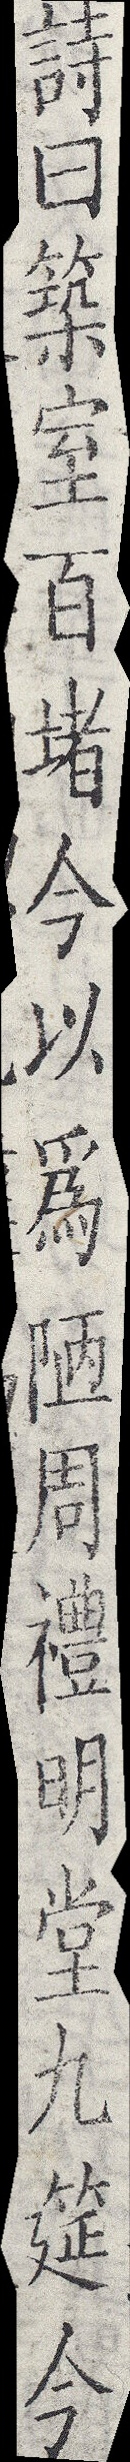詩曰築室百堵今以為陋周禮明堂九筵今
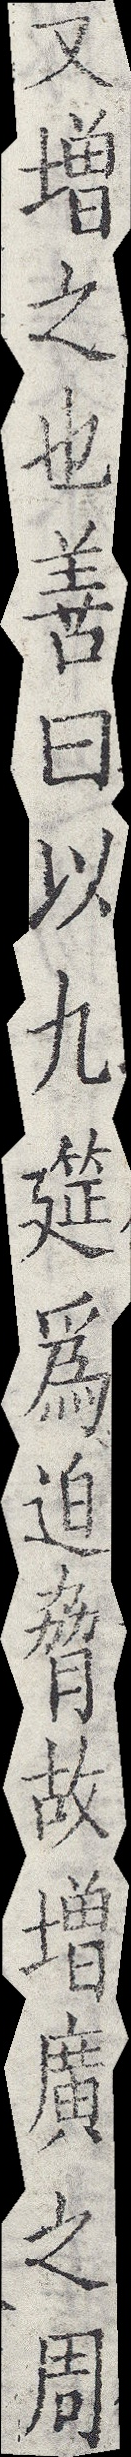又增之也善曰以九筵為迫脅故增廣之周
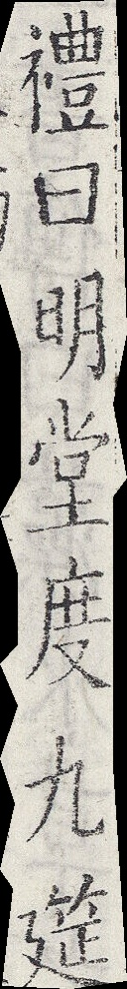禮曰明堂度九筵
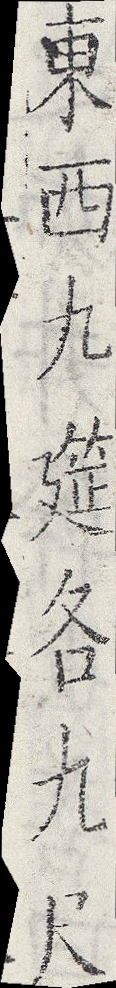東西九筵各九尺
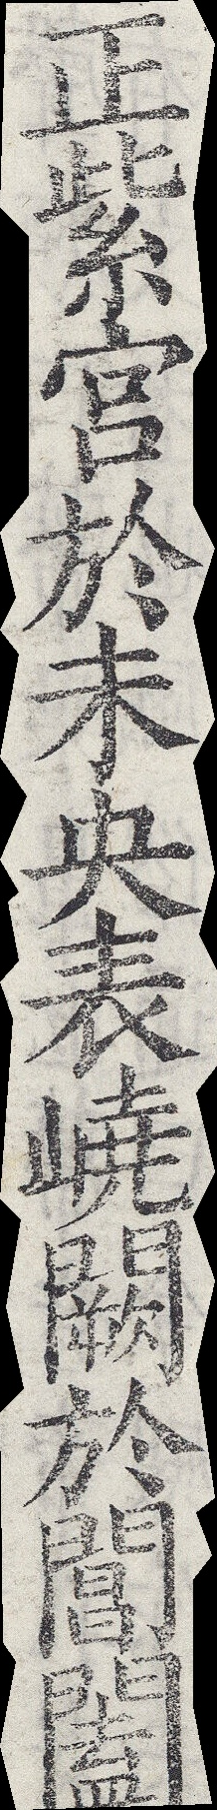正紫宮於未央表嶢闕於閶闔
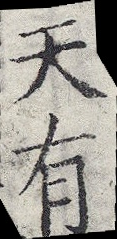天有
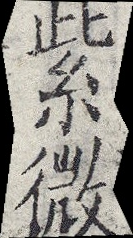紫微
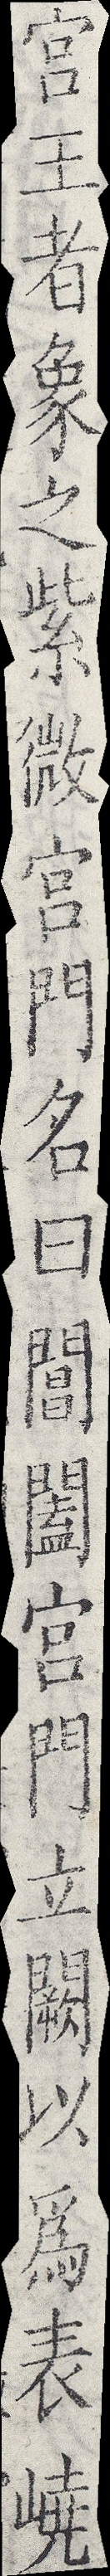宮王者象之紫微宮門名曰閶闔宮門立闕以為表嶢
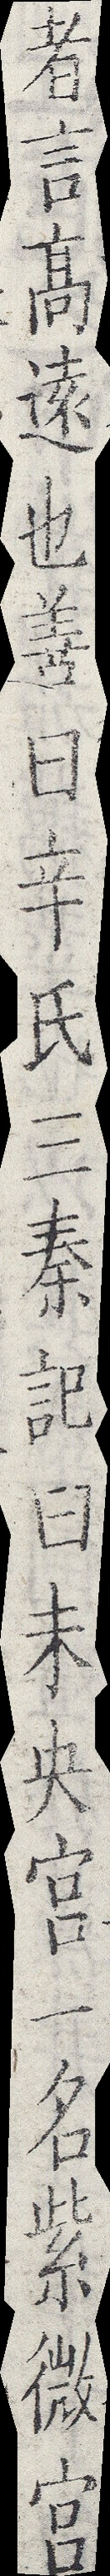者言高遠也善曰辛氏三秦記曰未央宮一名紫微宮
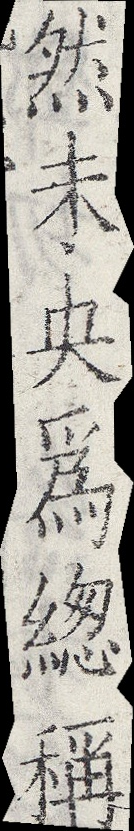然未央為總稱
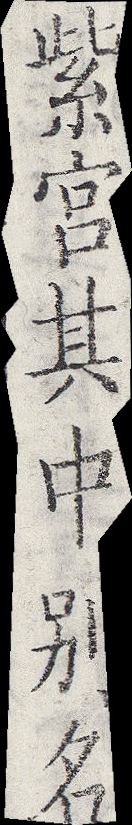紫宮其中別名
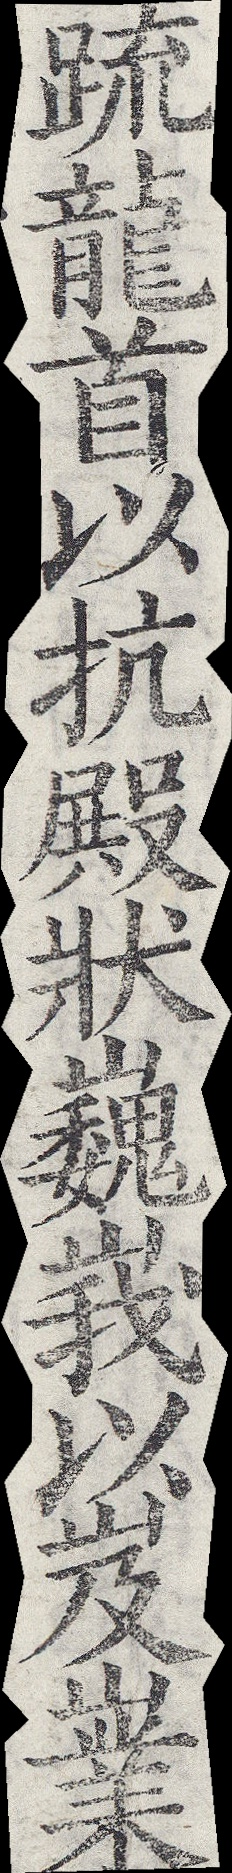䟽龍首以抗殿狀巍峩以岌嶪
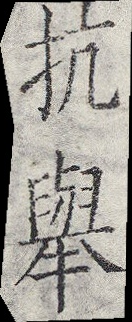抗舉
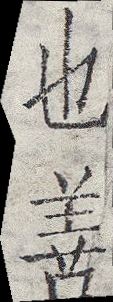也善
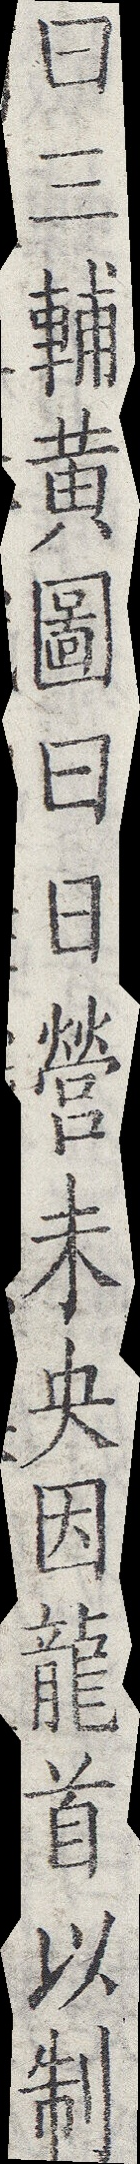曰三輔黃圖曰日營未央因龍首以制
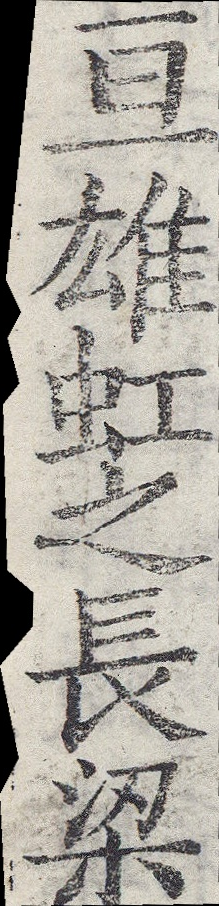亘雄虹之長梁
